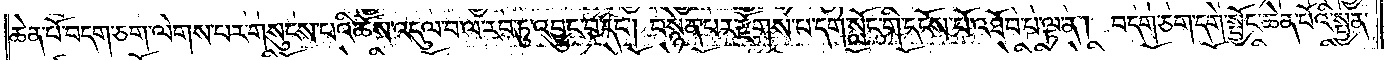ཆེན་པོ་བདག་ཅག་ལེགས་པར་གསུངས་པའི་ཆོས་འདུལ་བ་ལ་རབ་ཏུ་འབྱུང་བ་དང༌། བསྙེན་པར་རྫོགས་པ་དགེ་སློང་གི་དངོས་པོ་འཐོབ་པ་ལྟ་ན། བདག་ཅག་དགེ་སྦྱོང་ཆེན་པོའི་སྤྱན་
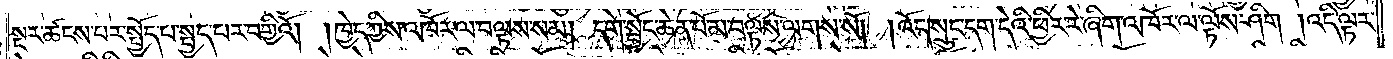སྔར་ཚངས་པར་སྤྱོད་པ་སྤྱད་པར་བགྱིའོ། །ཁྱེད་ཀྱིས་འཁོར་ལ་བལྟས་སམ། དགེ་སྦྱོང་ཆེན་པོ་མ་བལྟས་ལགས་སོ། །འོད་སྲུང་དག་དེའི་ཕྱིར་རེ་ཞིག་འཁོར་ལ་ལྟོས་ཤིག །འདི་ལྟར་
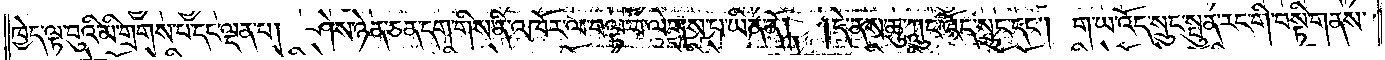ཁྱེད་ལྟ་བུའི་མི་གྲགས་པ་དང་ལྡན་པ། ཤེས་ཉེན་ཅན་དག་གིས་ནི་འཁོར་ལ་བལྟ་བ་ལེགས་པ་ཡིན་ནོ། །དེ་ནས་ཆུ་ཀླུང་འོད་སྲུང་དང༌། ག་ཡ་འོད་སྲུང་སྤུན་རང་གི་བསྟི་གནས་
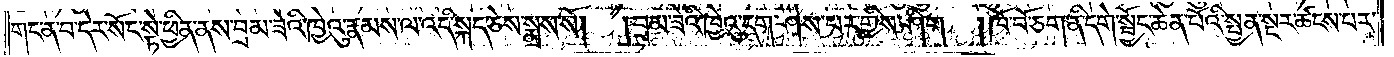གང་ན་བ་དེར་སོང་སྟེ་ཕྱིན་ནས་བྲམ་ཟེའི་ཁྱེའུ་རྣམས་ལ་འདི་སྐད་ཅེས་སྨྲས་སོ། །བྲམ་ཟེའི་ཁྱེའུ་དག་ཤེས་པར་གྱིས་ཤིག །ཁོ་བོ་ཅག་ནི་དགེ་སྦྱོང་ཆེན་པོའི་སྤྱན་སྔར་ཚངས་པར་
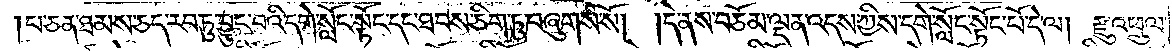པ་ཅན་ཐམས་ཅད་རབ་ཏུ་བྱུང་བའི་དགེ་སློང་སྟོང་དང་ཐབས་ཅིག་ཏུ་བཞུགས་སོ། །དེ་ནས་བཅོམ་ལྡན་འདས་ཀྱིས་དགེ་སློང་སྟོང་པོ་དེ་ལ།<gap>རྫུ་འཕྲུལ་
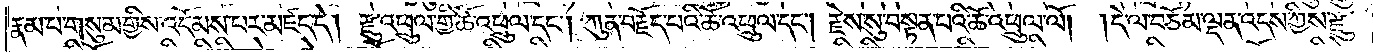རྣམ་པ་གསུམ་གྱིས་འདོམས་པར་མཛད་དེ། རྫུ་འཕྲུལ་གྱི་ཆོ་འཕྲུལ་དང༌། ཀུན་བརྗོད་པའི་ཆོ་འཕྲུལ་དང༌། རྗེས་སུ་བསྟན་པའི་ཆོ་འཕྲུལ་ལོ། །དེ་ལ་བཅོམ་ལྡན་འདས་ཀྱིས་རྫུ་
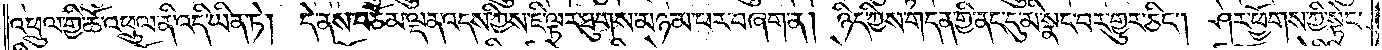འཕྲུལ་གྱི་ཆོ་འཕྲུལ་ནི་འདི་ཡིན་ཏེ། དེ་ནས་བཅོམ་ལྡན་འདས་ཀྱིས་ཇི་ལྟར་ཐུགས་མཉམ་པར་བཞག་ན། ཉིད་ཀྱིས་གདན་གྱི་ནང་དུ་མི་སྣང་བར་གྱུར་ཅིང༌། ཤར་ཕྱོགས་ཀྱི་སྟེང་
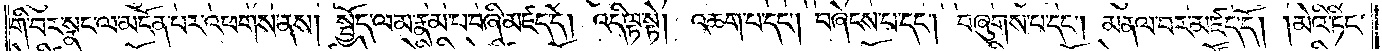གི་བར་སྣང་ལ་མངོན་པར་འཕགས་ནས། སྤྱོད་ལམ་རྣམ་པ་བཞི་མཛད་དེ། འདི་ལྟ་སྟེ། འཆག་པ་དང༌། བཞེངས་པ་དང༌། བཞུགས་པ་དང༌། མནལ་བར་མཛད་དོ། །མེའི་ཏིང་
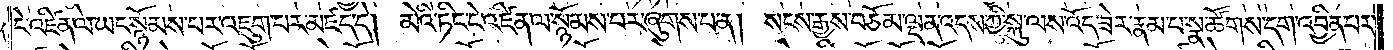ངེ་འཛིན་ལ་ཡང་སྙོམས་པར་འཇུག་པར་མཛད་དེ། མེའི་ཏིང་ངེ་འཛིན་ལ་སྙོམས་པར་ཞུགས་པ་ན། སངས་རྒྱས་བཅོམ་ལྡན་འདས་ཀྱི་སྐུ་ལས་འོད་ཟེར་རྣམ་པ་སྣ་ཚོགས་དག་འབྱིན་པར་
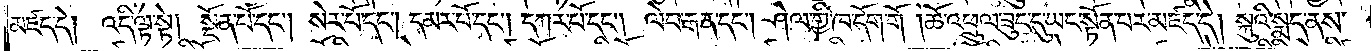མཛད་དེ། འདི་ལྟ་སྟེ། སྔོན་པོ་དང༌། སེར་པོ་དང༌། དམར་པོ་དང༌། དཀར་པོ་དང༌། ལེབ་རྒན་དང༌། ཤེལ་གྱི་ཁ་དོག་གོ །ཆོ་འཕྲུལ་ཟུང་དུ་ཡང་སྟོན་པར་མཛད་དེ། སྐུའི་སྨད་ནས་
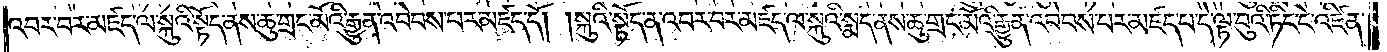འབར་བར་མཛད་ལ་སྐུའི་སྟོད་ནས་ཆུ་གྲང་མོའི་རྒྱུན་འབེབས་པར་མཛད་དོ། །སྐུའི་སྟོད་ན་འབར་བར་མཛད་ལ་སྐུའི་སྨད་ནས་ཆུ་གྲང་མོའི་རྒྱུན་འབེབས་པར་མཛད་པ་དེ་ལྟ་བུའི་ཏིང་ངེ་འཛིན་
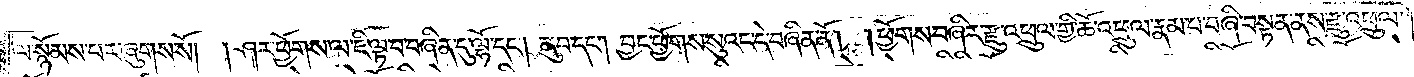ལ་སྙོམས་པར་ཞུགས་སོ། །ཤར་ཕྱོགས་ལ་ཇི་ལྟ་བ་བཞིན་དུ་ལྷོ་དང༌། ནུབ་དང༌། བྱང་ཕྱོགས་སུའང་དེ་བཞིན་ནོ། །ཕྱོགས་བཞིར་རྫུ་འཕྲུལ་གྱི་ཆོ་འཕྲུལ་རྣམ་པ་བཞི་བསྟན་ནས་རྫུ་འཕྲུལ་
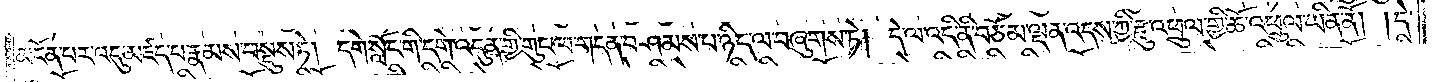མངོན་པར་འདུ་མཛད་པ་རྣམས་བསྡུས་ཏེ། དགེ་སློང་གི་དགེ་འདུན་གྱི་གུང་ལ་གདན་བཤམས་པ་ཉིད་ལ་བཞུགས་ཏེ། དེ་ལ་འདི་ནི་བཅོམ་ལྡན་འདས་ཀྱི་རྫུ་འཕྲུལ་གྱི་ཆོ་འཕྲུལ་ཡིན་ནོ། །དེ་
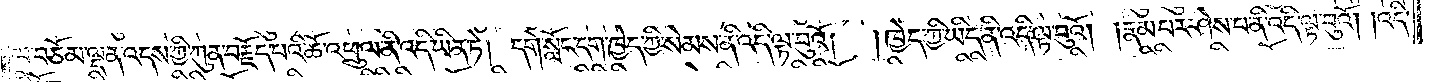ལ་བཅོམ་ལྡན་འདས་ཀྱི་ཀུན་བརྗོད་པའི་ཆོ་འཕྲུལ་ནི་འདི་ཡིན་ཏེ། དགེ་སློང་དག་ཁྱེད་ཀྱི་སེམས་ནི་འདི་ལྟ་བུའོ།<gap>།ཁྱེད་ཀྱི་ཡིད་ནི་འདི་ལྟ་བུའོ། །རྣམ་པར་ཤེས་པ་ནི་འདི་ལྟ་བུའོ། །འདི་
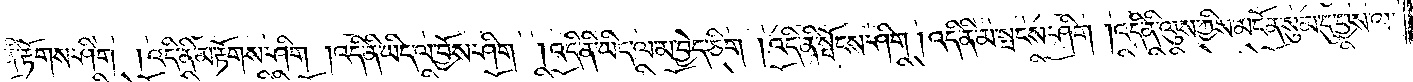ནི་རྟོགས་ཤིག །འདི་ནི་མ་རྟོགས་ཤིག །འདི་ནི་ཡིད་ལ་བྱོས་ཤིག །འདི་ནི་ཡིད་ལ་མ་བྱེད་ཅིག །འདི་ནི་སྤོངས་ཤིག །འདི་ནི་མ་སྤངས་ཤིག །འདི་ནི་ལུས་ཀྱིས་མངོན་སུམ་དུ་བྱས་ལ་
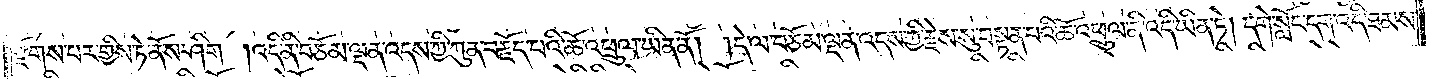རྫོགས་པར་གྱིས་ཏེ་ནོས་ཤིག །འདི་ནི་བཅོམ་ལྡན་འདས་ཀྱི་ཀུན་བརྗོད་པའི་ཆོ་འཕྲུལ་ཡིན་ནོ། །དེ་ལ་བཅོམ་ལྡན་འདས་ཀྱི་རྗེས་སུ་བསྟན་པའི་ཆོ་འཕྲུལ་ནི་འདི་ཡིན་ཏེ། དགེ་སློང་དག་འདི་ཐམས་
